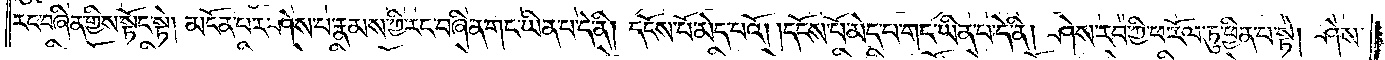རང་བཞིན་གྱིས་སྟོང་སྟེ། མངོན་པར་ཤེས་པ་རྣམས་ཀྱི་རང་བཞིན་གང་ཡིན་པ་དེ་ནི། དངོས་པོ་མེད་པའོ། །དངོས་པོ་མེད་པ་གང་ཡིན་པ་དེ་ནི། ཤེས་རབ་ཀྱི་ཕ་རོལ་ཏུ་ཕྱིན་པ་སྟེ། ཤེས་
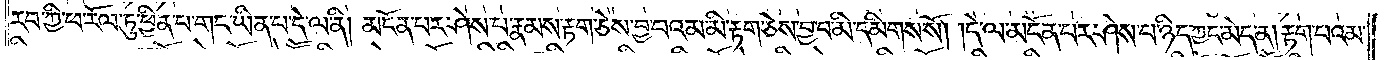རབ་ཀྱི་ཕ་རོལ་ཏུ་ཕྱིན་པ་གང་ཡིན་པ་དེ་ལ་ནི། མངོན་པར་ཤེས་པ་རྣམས་རྟག་ཅེས་བྱ་བའམ་མི་རྟག་ཅེས་བྱ་བ་མི་དམིགས་སོ། །དེ་ལ་མངོན་པར་ཤེས་པ་ཉིད་ཀྱང་མེད་ན། རྟག་པའམ་
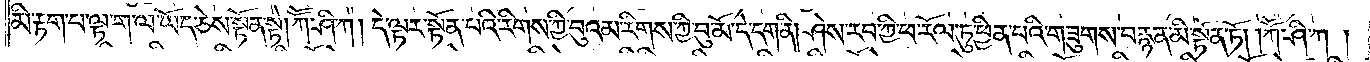མི་རྟག་པ་ལྟ་ག་ལ་ཡོད་ཅེས་སྟོན་ཏེ། ཀཽ་ཤི་ཀ། དེ་ལྟར་སྟོན་པའི་རིགས་ཀྱི་བུའམ་རིགས་ཀྱི་བུ་མོ་དེ་དག་ནི། ཤེས་རབ་ཀྱི་ཕ་རོལ་ཏུ་ཕྱིན་པའི་གཟུགས་བརྙན་མི་སྟོན་ཏོ། །ཀཽ་ཤི་ཀ།
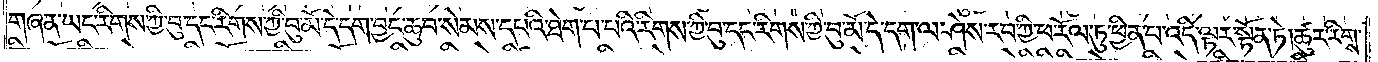གཞན་ཡང་རིགས་ཀྱི་བུ་དང་རིགས་ཀྱི་བུ་མོ་དེ་དག་བྱང་ཆུབ་སེམས་དཔའི་ཐེག་པ་པའི་རིགས་ཀྱི་བུ་དང་རིགས་ཀྱི་བུ་མོ་དེ་དག་ལ་ཤེས་རབ་ཀྱི་ཕ་རོལ་ཏུ་ཕྱིན་པ་འདི་ལྟར་སྟོན་ཏེ། ཚུར་རིགས་
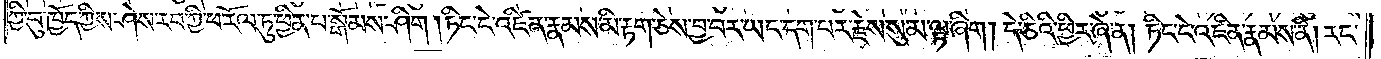ཀྱི་བུ་ཁྱོད་ཀྱིས་ཤེས་རབ་ཀྱི་ཕ་རོལ་ཏུ་ཕྱིན་པ་སྒོམས་ཤིག །ཏིང་ངེ་འཛིན་རྣམས་མི་རྟག་ཅེས་བྱ་བར་ཡང་དག་པར་རྗེས་སུ་མ་ལྟ་ཞིག །དེ་ཅིའི་ཕྱིར་ཞེ་ན། ཏིང་ངེ་འཛིན་རྣམས་ནི། རང་
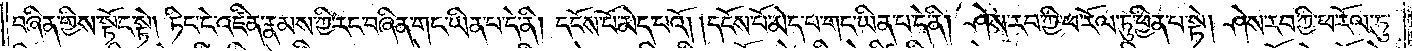བཞིན་གྱིས་སྟོང་སྟེ། ཏིང་ངེ་འཛིན་རྣམས་ཀྱི་རང་བཞིན་གང་ཡིན་པ་དེ་ནི། དངོས་པོ་མེད་པའོ། །དངོས་པོ་མེད་པ་གང་ཡིན་པ་དེ་ནི། ཤེས་རབ་ཀྱི་ཕ་རོལ་ཏུ་ཕྱིན་པ་སྟེ། ཤེས་རབ་ཀྱི་ཕ་རོལ་ཏུ་
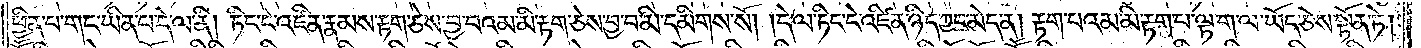ཕྱིན་པ་གང་ཡིན་པ་དེ་ལ་ནི། ཏིང་ངེ་འཛིན་རྣམས་རྟག་ཅེས་བྱ་བའམ་མི་རྟག་ཅེས་བྱ་བ་མི་དམིགས་སོ། །དེ་ལ་ཏིང་ངེ་འཛིན་ཉིད་ཀྱང་མེད་ན། རྟག་པའམ་མི་རྟག་པ་ལྟ་ག་ལ་ཡོད་ཅེས་སྟོན་ཏེ།
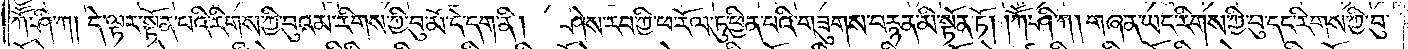ཀཽ་ཤི་ཀ། དེ་ལྟར་སྟོན་པའི་རིགས་ཀྱི་བུའམ་རིགས་ཀྱི་བུ་མོ་དེ་དག་ནི། ཤེས་རབ་ཀྱི་ཕ་རོལ་ཏུ་ཕྱིན་པའི་གཟུགས་བརྙན་མི་སྟོན་ཏོ། །ཀཽ་ཤི་ཀ། གཞན་ཡང་རིགས་ཀྱི་བུ་དང་རིགས་ཀྱི་བུ་
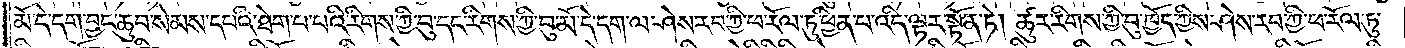མོ་དེ་དག་བྱང་ཆུབ་སེམས་དཔའི་ཐེག་པ་པའི་རིགས་ཀྱི་བུ་དང་རིགས་ཀྱི་བུ་མོ་དེ་དག་ལ་ཤེས་རབ་ཀྱི་ཕ་རོལ་ཏུ་ཕྱིན་པ་འདི་ལྟར་སྟོན་ཏེ། ཚུར་རིགས་ཀྱི་བུ་ཁྱོད་ཀྱིས་ཤེས་རབ་ཀྱི་ཕ་རོལ་ཏུ་
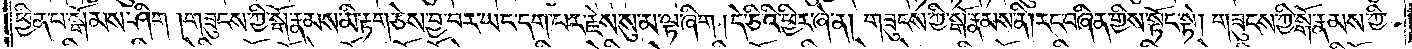ཕྱིན་པ་སྒོམས་ཤིག །གཟུངས་ཀྱི་སྒོ་རྣམས་མི་རྟག་ཅེས་བྱ་བར་ཡང་དག་པར་རྗེས་སུ་མ་ལྟ་ཞིག །དེ་ཅིའི་ཕྱིར་ཞེ་ན། གཟུངས་ཀྱི་སྒོ་རྣམས་ནི། རང་བཞིན་གྱིས་སྟོང་སྟེ། གཟུངས་ཀྱི་སྒོ་རྣམས་ཀྱི་
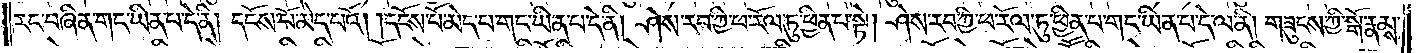རང་བཞིན་གང་ཡིན་པ་དེ་ནི། དངོས་པོ་མེད་པའོ། །དངོས་པོ་མེད་པ་གང་ཡིན་པ་དེ་ནི། ཤེས་རབ་ཀྱི་ཕ་རོལ་ཏུ་ཕྱིན་པ་སྟེ། ཤེས་རབ་ཀྱི་ཕ་རོལ་ཏུ་ཕྱིན་པ་གང་ཡིན་པ་དེ་ལ་ནི། གཟུངས་ཀྱི་སྒོ་རྣམས་
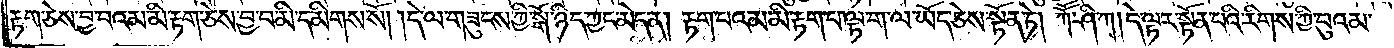རྟག་ཅེས་བྱ་བའམ་མི་རྟག་ཅེས་བྱ་བ་མི་དམིགས་སོ། །དེ་ལ་གཟུངས་ཀྱི་སྒོ་ཉིད་ཀྱང་མེད་ན། རྟག་པའམ་མི་རྟག་པ་ལྟ་ག་ལ་ཡོད་ཅེས་སྟོན་ཏེ། ཀཽ་ཤི་ཀ། དེ་ལྟར་སྟོན་པའི་རིགས་ཀྱི་བུའམ་
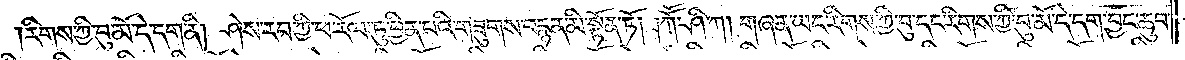རིགས་ཀྱི་བུ་མོ་དེ་དག་ནི། ཤེས་རབ་ཀྱི་ཕ་རོལ་ཏུ་ཕྱིན་པའི་གཟུགས་བརྙན་མི་སྟོན་ཏོ། །ཀཽ་ཤི་ཀ། གཞན་ཡང་རིགས་ཀྱི་བུ་དང་རིགས་ཀྱི་བུ་མོ་དེ་དག་བྱང་ཆུབ་
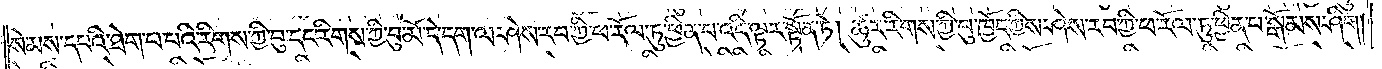སེམས་དཔའ་ཐེག་པ་པའི་རིགས་ཀྱི་བུ་དང་རིགས་ཀྱི་བུ་མོ་དེ་དག་ལ་ཤེས་རབ་ཀྱི་ཕ་རོལ་ཏུ་ཕྱིན་པ་འདི་ལྟར་སྟོན་ཏེ། ཚུར་རིགས་ཀྱི་བུ་ཁྱོད་ཀྱིས་ཤེས་རབ་ཀྱི་ཕ་རོལ་ཏུ་ཕྱིན་པ་སྒོམས་ཤིག །
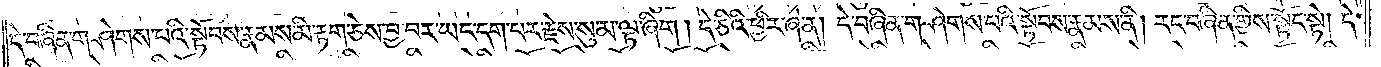དེ་བཞིན་གཤེགས་པའི་སྟོབས་རྣམས་མི་རྟག་ཅེས་བྱ་བར་ཡང་དག་པར་རྗེས་སུ་མ་ལྟ་ཞིག །དེ་ཅིའི་ཕྱིར་ཞེ་ན། དེ་བཞིན་གཤེགས་པའི་སྟོབས་རྣམས་ནི། རང་བཞིན་གྱིས་སྟོང་སྟེ། དེ་
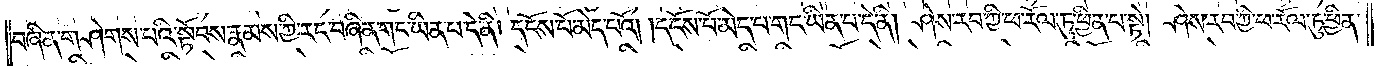བཞིན་གཤེགས་པའི་སྟོབས་རྣམས་ཀྱི་རང་བཞིན་གང་ཡིན་པ་དེ་ནི། དངོས་པོ་མེད་པའོ། །དངོས་པོ་མེད་པ་གང་ཡིན་པ་དེ་ནི། ཤེས་རབ་ཀྱི་ཕ་རོལ་ཏུ་ཕྱིན་པ་སྟེ། ཤེས་རབ་ཀྱི་ཕ་རོལ་ཏུ་ཕྱིན་
